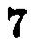7
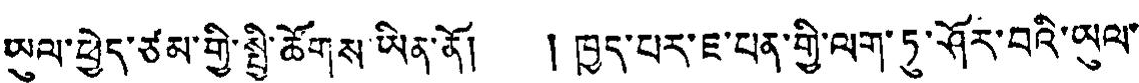ཡུལ་ཕྱེད་ཙམ་གྱི་སྤྱི་ཚོགས་ཡིན་ནོ། །ཁྱད་པར་ཇ་པན་གྱི་ལག་ཏུ་ཤོར་བའི་ཡུལ་
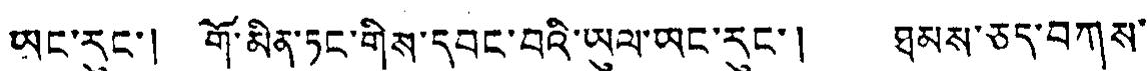ཡང་རུང་། གོ་མིན་ཏང་གིས་དབང་བའི་ཡུལ་ཡང་རུང་། ཐམས་ཅད་བཀས་
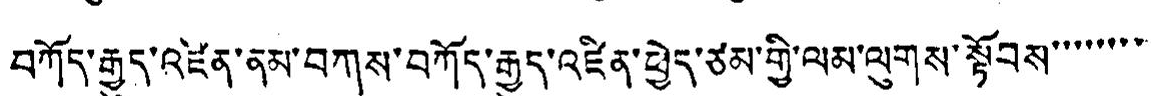བཀོད་རྒྱུད་འཛོན་ནམ་བཀས་བཀོད་རྒྱུད་འཛིན་ཕྱེད་ཙམ་གྱི་ལམ་ལུགས་སྟོབས་་་་་་་་་
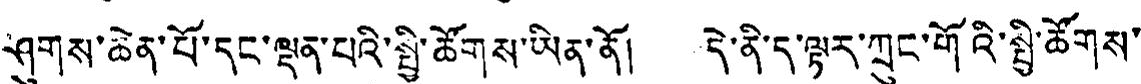ཤུགས་ཆེན་པོ་དང་ལྡན་པའི་སྤྱི་ཚོགས་ཡིན་ནོ། དེ་ནི་ད་ལྟར་ཀྲུང་གོའི་སྤྱི་ཚོགས་
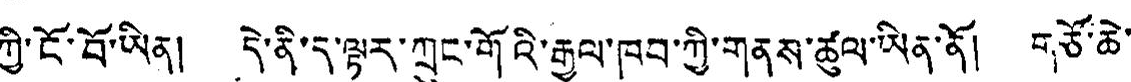ཀྱི་ངོ་བོ་ཡིན། དེ་ནི་ད་ལྟར་ཀྲུང་གོའི་རྒྱལ་ཁབ་ཀྱི་གནས་ཚུལ་ཡིན་ནོ། གཙོ་ཆེ་
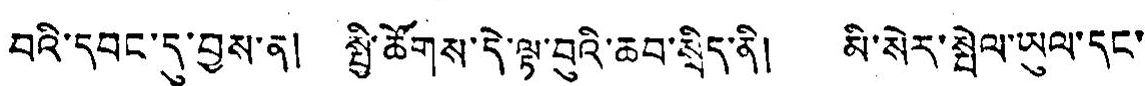བའི་དབང་དུ་བྱས་ན། སྤྱི་ཚོགས་དེ་ལྟ་བུའི་ཆབ་སྲིད་ནི། མི་སེར་སྤེལ་ཡུལ་དང་
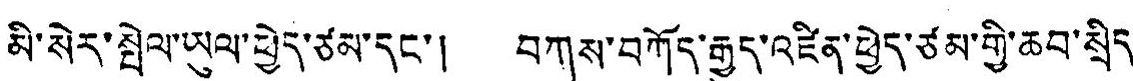མི་སེར་སྤེལ་ཡུལ་ཕྱེད་ཙམ་དང་། བཀས་བཀོད་རྒྱུད་འཛིན་ཕྱེད་ཙམ་གྱི་ཆབ་སྲིད་
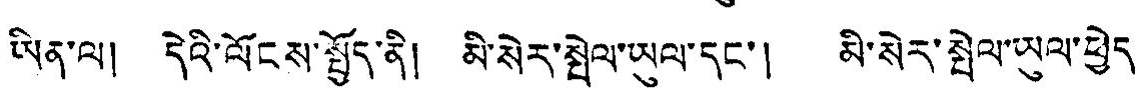ཡིན་ལ། དེའི་ལོངས་སྤྱོད་ནི། མི་སེར་སྤེལ་ཡུལ་དང་། མི་སེར་སྤེལ་ཡུལ་ཕྱེད་
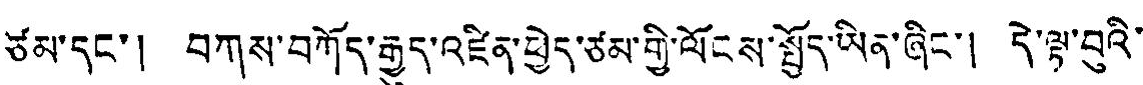ཙམ་དང་། བཀས་བཀོད་རྒྱུད་འཛིན་ཕྱེད་ཙམ་གྱི་ལོངས་སྤྱོད་ཡིན་ཞིང་། དེ་ལྟ་བུའི་
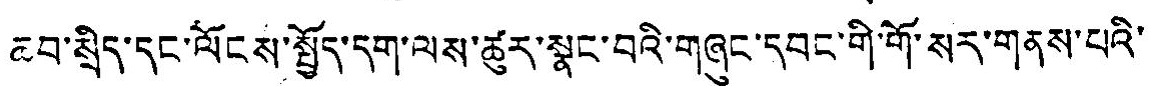ཆབ་སྲིད་དང་ལོངས་སྤྱོད་དག་ལས་ཚུར་སྣང་བའི་གཞུང་དབང་གི་གོ་སར་གནས་པའི་
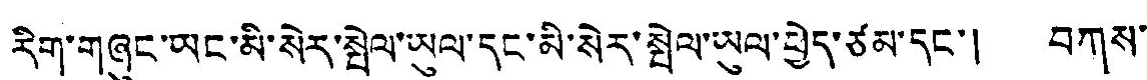རིག་གཞུང་ཡང་མི་སེར་སྤེལ་ཡུལ་དང་མི་སེར་སྤེལ་ཡུལ་བྱེད་ཙམ་དང་། བཀས་
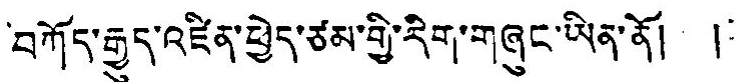བཀོད་རྒྱུད་འཛིན་ཕྱེད་ཙམ་གྱི་རིག་གཞུང་ཡིན་ནོ། །
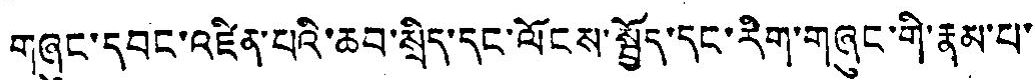གཞུང་དབང་འཛིན་པའི་ཆབ་སྲིད་དང་ལོངས་སྤྱོད་དང་རིག་གཞུང་གི་རྣམ་པ་
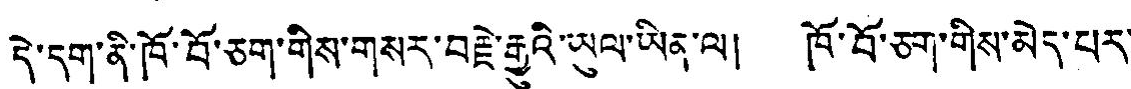དེ་དག་ནི་ཁོ་བོ་ཅག་གིས་གསར་བརྗེ་རྒྱུའི་ཡུལ་ཡིན་ལ། ཁོ་བོ་ཅག་གིས་མེད་པར་
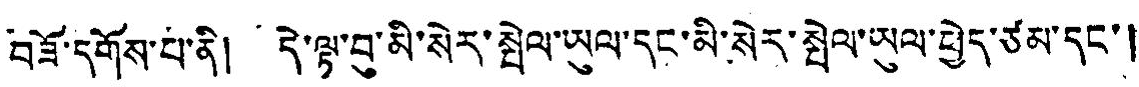བཟོ་དགོས་པ་ནི། དེ་ལྟ་བུ་མི་སེར་སྤྲེལ་ཡུལ་དང་མི་སེར་སྤེལ་ཡུལ་ཕྱེད་ཙམ་དང་།
